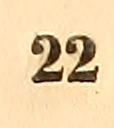22
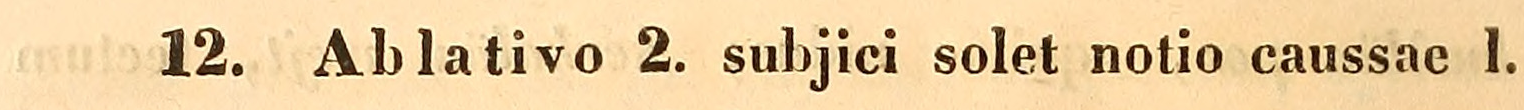12. Ablativo 2. subjici solet notio caussae l.
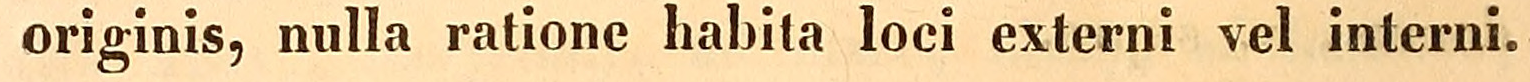originis, nulla ratione habita loci externi vel interni.
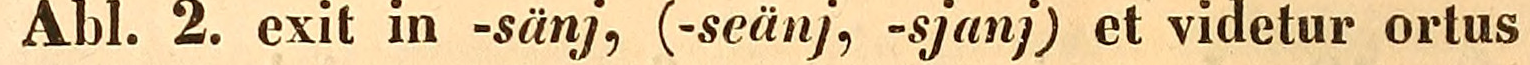Abl. 2. exit in -sänj, (-seänj, -sjanj) et videtur ortus
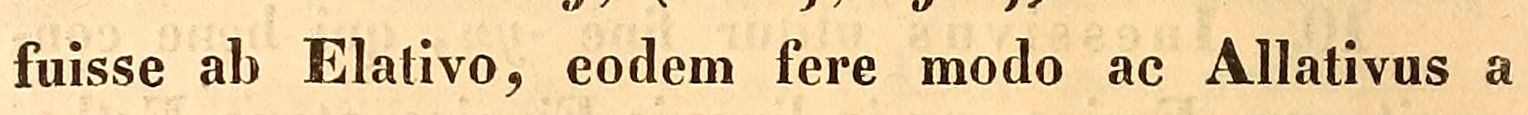fuisse ab Elativo, eodem fere modo ac Allativus a
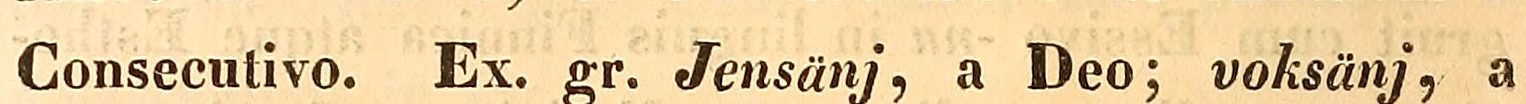Consecutivo. Ex. gr. Jensänj, a Deo; voksänj, a
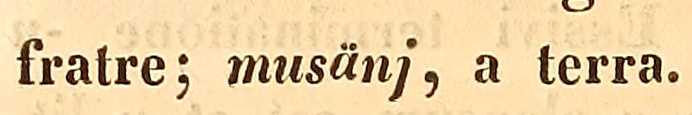fratre; musänj, a terra.
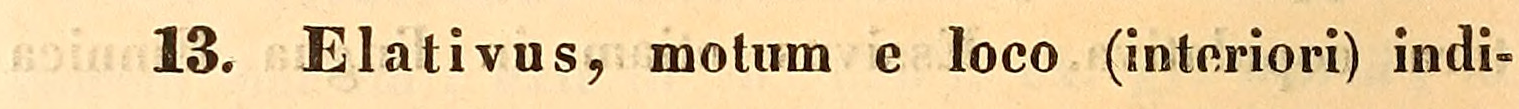13. Elativus mot e loco (interori) indi-
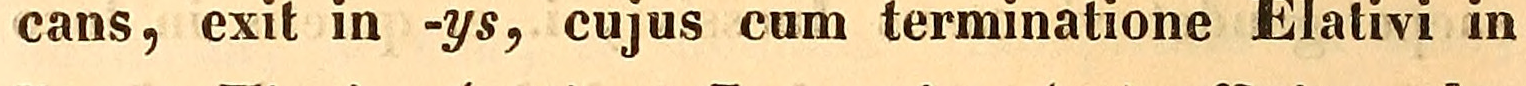cans, exit in -ys, cujus cum terminatione Elativi in
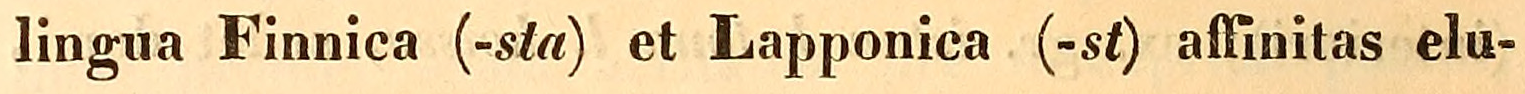lingua Finnica (-sta) et Lapponica (-st) affinitas elu-
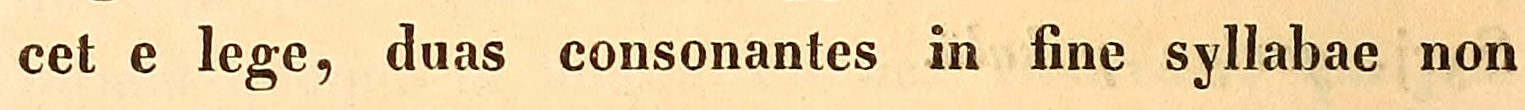cet e lege, duas consonantes in fine syllabae non
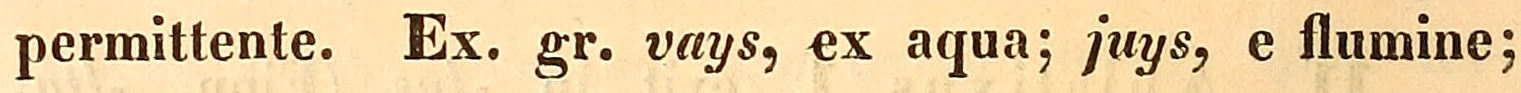permittente. Ex. gr. vays, ex aqua; juys, e flumine;
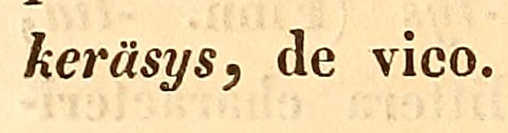keräsys, de vico.
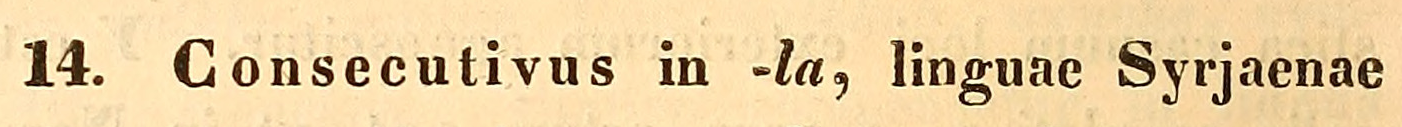14. Consecutivus in -la, linguae Syrjaenae
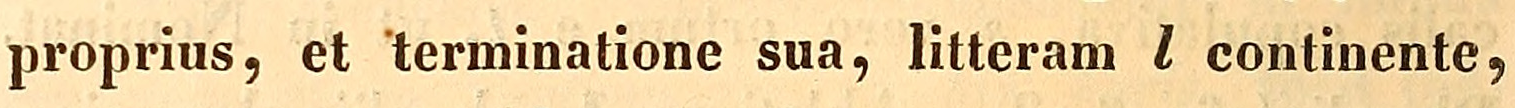proprius, et terminatione sua, litteram l continente,
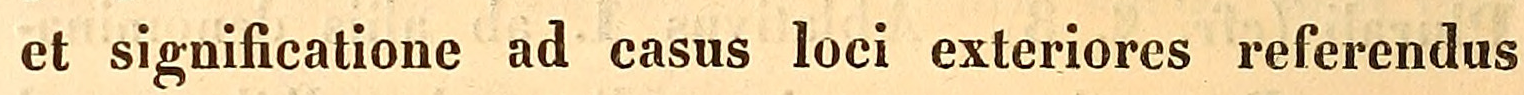et significatione ad casus loci exteriores referendus
